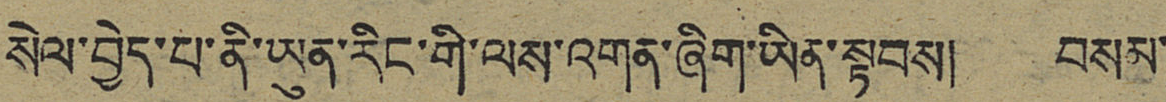སེལ་བྱེད་པ་ནི་ཡུན་རིང་གི་ལས་འགན་ཞིག་ཡིན་སྟབས། བསམ་
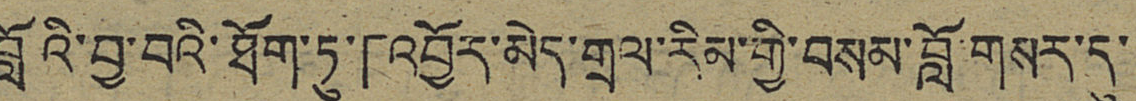བློའི་བྱ་བའི་ཐོག་ཏུ་「འབྱོར་མེད་གྲལ་རིམ་གྱི་བསམ་བློ་གསྲ་དུ་་
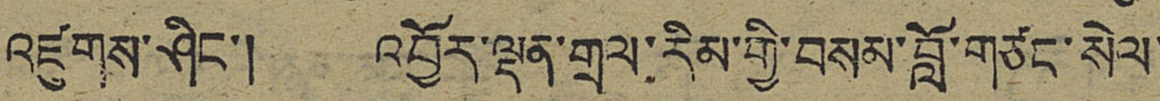འཛུགས་ཤིང་། འབྱོར་ལྡན་གྲལ་རིམ་གྱི་བསམ་བློ་གཙང་སེལ་
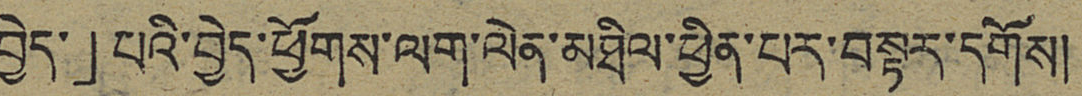བྱེད་」པའི་བྱེད་ཕྱོགས་ལག་ལེན་མཐིལ་ཕྱིན་པར་བསྟར་དགོས།
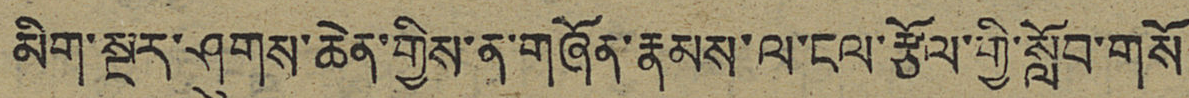མིག་སྔར་ཤུགས་ཆེན་གྱིས་ན་གཞོན་རྣམས་ལ་ངལ་རྩོལ་གྱི་སློབ་གསོ
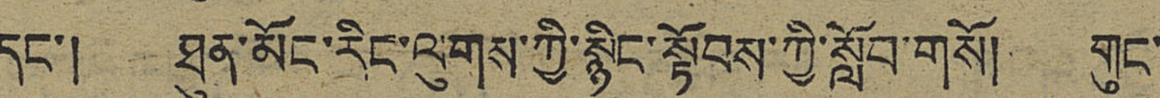དང་། ཐུན་མོང་རིང་ལུགས་ཀྱི་སྙིང་སྟོབས་ཀྱི་སློབ་གསོ། གུང་
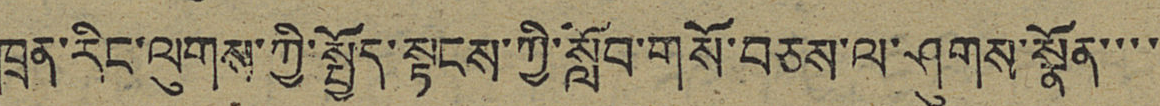ཁྲན་རིང་ལུགས་ཀྱི་སྤྱོད་སྟངས་ཀྱི་སློབ་གསོ་བཅས་ལ་ཤུགས་སྣོན་་་་
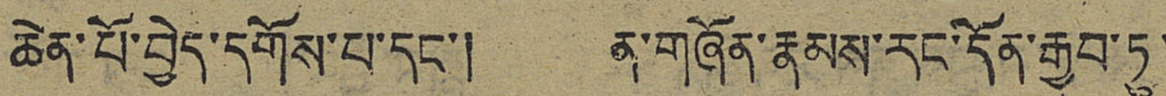ཆེན་པོ་བྱེད་དགོས་པ་དང་། ན་གཞོན་རྣམས་རང་དོན་རྒྱབ་ཏུ་
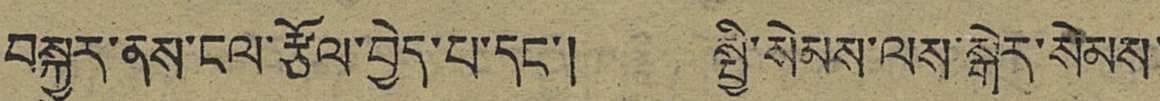བསྐྱུར་ནས་ངལ་རྩོལ་བྱེད་པ་དང་། སྤྱི་སེམས་ལས་སྒེར་སེམས་
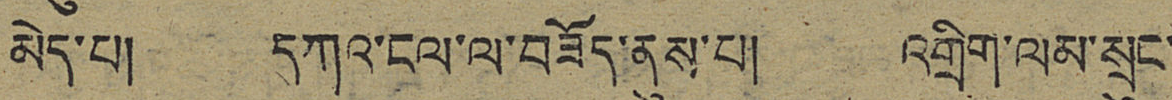མེད་པ། དཀའ་ངལ་ལ་བཟོད་ནུས་པ། འགྲིག་ལམ་སྲུང་
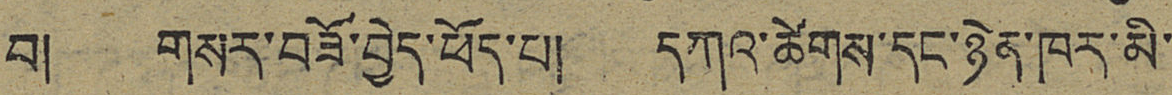བ། གསར་བཟོ་བྱེད་ཕོད་པ། དཀའ་ཚེགས་དང་ཉེན་ཁར་མི་
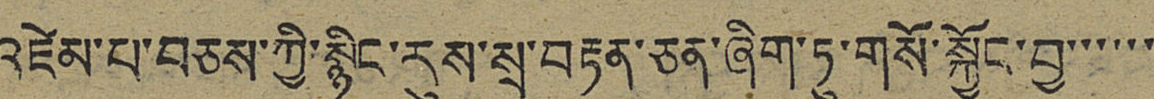འཛེམ་པ་བཅས་ཀྱི་སྙིང་རུས་སྲ་བརྟན་ཅན་ཞིག་ཏུ་གསོ་སྐྱོང་བྱ་་་་་་
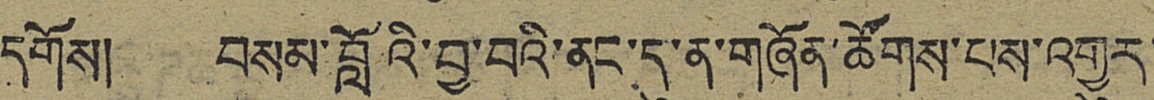དགོས། བསམ་བློའི་བྱ་བའི་ནང་དུ་ན་གཞོན་ཚོགས་པས་འགྱུར་
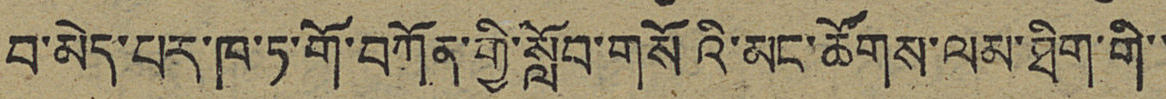བ་མེད་པར་ཁ་ཏ་གོ་བཀོན་གྱི་སློབ་གསོའི་མང་ཚོགས་ལམ་ཐིག་གི་་
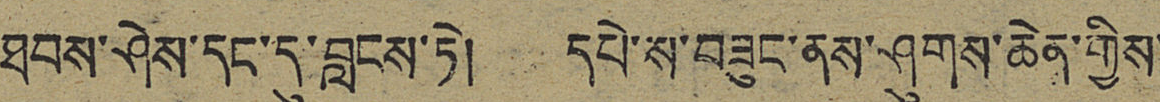ཐབས་ཤེས་དང་དུ་བླངས་ཏེ། དཔེ་ས་བཟུང་ནས་ཤུགས་ཆེན་གྱིས་
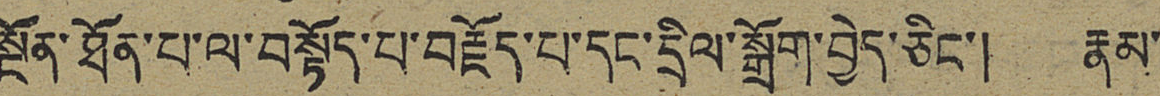སྔོན་ཐོན་པ་ལ་བསྟོད་པ་བརྗོད་པ་དང་དྲིལ་སྒྲོག་བྱེད་ཅིང་། རྣམ་
